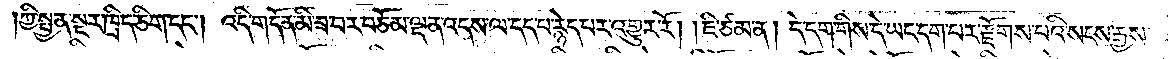ཀྱི་སྤྱན་སྔར་ཁྲིད་ཅིག་དང༌། འདི་གདོན་མི་ཟ་བར་བཅོམ་ལྡན་འདས་ལ་དད་པ་རྙེད་པར་འགྱུར་རོ། །ཇི་ཙམ་ན། དེ་དག་གིས་དེ་ཡང་དག་པར་རྫོགས་པའི་སངས་རྒྱས་
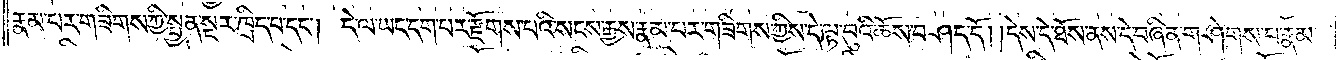རྣམ་པར་གཟིགས་ཀྱི་སྤྱན་སྔར་ཁྲིད་པ་དང༌། དེ་ལ་ཡང་དག་པར་རྫོགས་པའི་སངས་རྒྱས་རྣམ་པར་གཟིགས་ཀྱིས་དེ་ལྟ་བུའི་ཆོས་བཤད་དོ། །དེས་དེ་ཐོས་ནས་དེ་བཞིན་གཤེགས་པ་རྣམ་
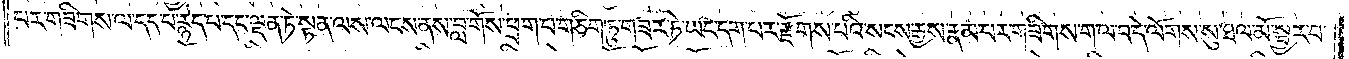པར་གཟིགས་ལ་དད་པ་རྙེད་པ་དང་ལྡན་ཏེ་སྟན་ལས་ལངས་ནས་བླ་གོས་ཕྲག་པ་གཅིག་ཏུ་གཟར་ཏེ་ཡང་དག་པར་རྫོགས་པའི་སངས་རྒྱས་རྣམ་པར་གཟིགས་ག་ལ་བ་དེ་ལོགས་སུ་ཐལ་མོ་སྦྱར་བ་
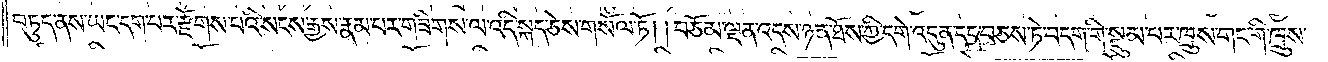བཏུད་ནས་ཡང་དག་པར་རྫོགས་པའི་སངས་རྒྱས་རྣམ་པར་གཟིགས་ལ་འདི་སྐད་ཅེས་གསོལ་ཏོ། །བཅོམ་ལྡན་འདས་ཉན་ཐོས་ཀྱི་དགེ་འདུན་དང་བཅས་ཏེ་བདག་གི་སྡུམ་པར་ཁྲུས་གང་གི་ཁྲུས་
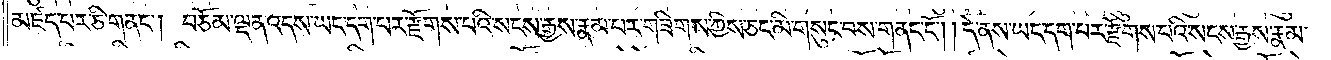མཛད་པར་ཅི་གནང༌། བཅོམ་ལྡན་འདས་ཡང་དག་པར་རྫོགས་པའི་སངས་རྒྱས་རྣམ་པར་གཟིགས་ཀྱིས་ཅང་མི་གསུང་བས་གནང་ངོ༌། །དེ་ནས་ཡང་དག་པར་རྫོགས་པའི་སངས་རྒྱས་རྣམ་
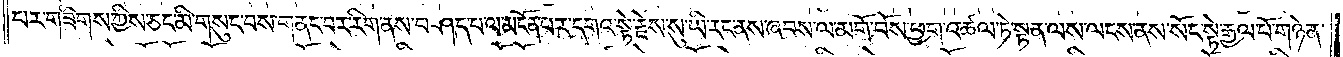པར་གཟིགས་ཀྱི་ཅང་མི་གསུང་བས་གནང་བར་རིག་ནས་བཤད་པ་ལ་མངོན་པར་དགའ་སྟེ་རྗེས་སུ་ཡི་རང་ནས་ཞབས་ལ་མགོ་བོས་ཕྱག་འཚལ་ཏེ་སྟན་ལས་ལངས་ནས་སོང་སྟེ་རྒྱལ་པོ་གཉེན་
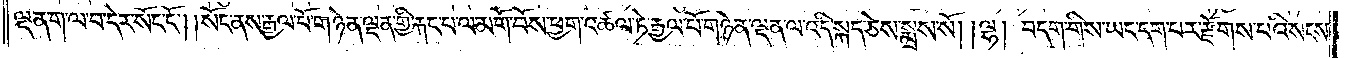ལྡན་ག་ལ་བ་དེར་སོང་ངོ༌། །སེང་ནས་རྒྱལ་པོ་གཉེན་ལྡན་གྱི་རྐང་པ་ལ་མགོ་བོས་ཕྱག་འཚལ་ཏེ་རྒྱལ་པོ་གཉེན་ལྡན་ལ་འདི་སྐད་ཅེས་སྨྲས་སོ། །ལྷ། བདག་གིས་ཡང་དག་པར་རྫོགས་པའི་སངས་
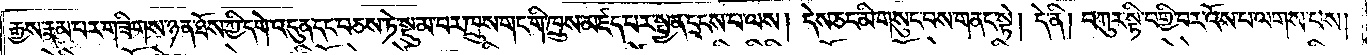རྒྱས་རྣམ་པར་གཟིགས་ཉན་ཐོས་ཀྱི་དགེ་འདུན་དང་བཅས་ཏེ་སྡུམ་པར་ཁྲུས་གང་གི་ཁྲུས་མཛད་པར་སྤྱན་དྲངས་པ་ལས། དེས་ཅང་མི་གསུང་བས་གནང་སྟེ། དེ་ནི། བཀུར་སྟི་བགྱི་བར་འོས་པ་ལགས་པས།
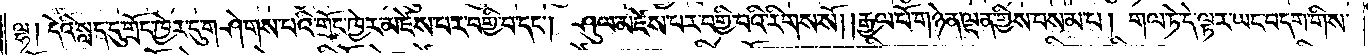ལྷ། དེའི་སླད་དུ་གྲོང་ཁྱེར་དུ་གཤེགས་པའི་གྲོང་ཁྱེར་མཛེས་པར་བགྱི་བ་དང༌། ཤུལ་མཛེས་པར་བགྱི་བའི་རིགས་སོ། །རྒྱལ་པོ་གཉེན་ལྡན་གྱིས་བསམ་པ། གལ་ཏེ་དེ་ལྟར་ཡང་བདག་གིས་
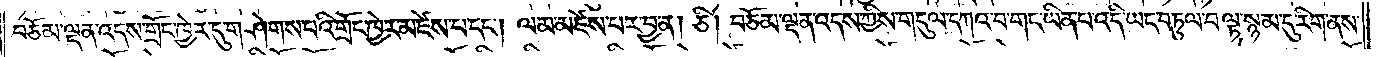བཅོམ་ལྡན་འདས་གྲོང་ཁྱེར་དུ་གཤེགས་པའི་གྲོང་ཁྱེར་མཛེས་པ་དང༌། ལམ་མཛེས་པར་བྱ་ན། ཅི། བཅོམ་ལྡན་འདས་ཀྱིས་གདུལ་དཀའ་བ་གང་ཡིན་པ་འདི་ཡང་བཏུལ་བལྟ་སྙམ་དུ་རིག་ནས་
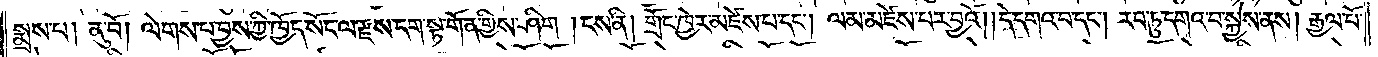སྨྲས་པ། ནུ་བོ། ལེགས་པ་བྱས་ཀྱི་ཁྱོད་སོང་ལ་རྫས་དག་སྟ་གོན་གྱིས་ཤིག །ངས་ནི། གྲོང་ཁྱེར་མཛེས་པ་དང༌། ལམ་མཛེས་པར་བྱའོ། །དེ་དགའ་བ་དང༌། རབ་ཏུ་དགའ་བ་སྐྱེས་ནས། རྒྱལ་པོ་
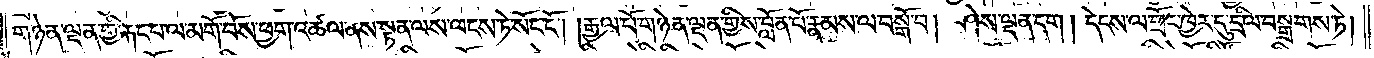གཉེན་ལྡན་གྱི་རྐང་པ་ལ་མགོ་བོས་ཕྱག་འཚལ་ནས་སྟན་ལས་ལངས་ཏེ་སོང་ངོ༌། །རྒྱལ་པོ་གཉེན་ལྡན་གྱིས་བློན་པོ་རྣམས་ལ་བསྒོ་བ། ཤེས་ལྡན་དག །དེངས་ལ་གྲོང་ཁྱེར་དུ་དྲིལ་བསྒྲགས་ཏེ།
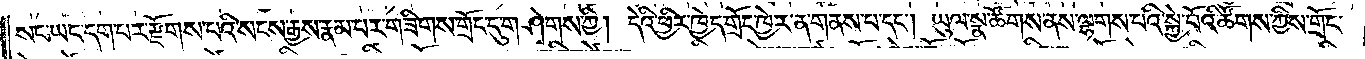སང་ཡང་དག་པར་རྫོགས་པའི་སངས་རྒྱས་རྣམ་པར་གཟིགས་གྲོང་དུ་གཤེགས་ཀྱི། དེའི་ཕྱིར་ཁྱེད་གྲོང་ཁྱེར་ན་གནས་པ་དང༌། ཡུལ་སྣ་ཚོགས་ནས་ལྷགས་པའི་སྐྱེ་བོའི་ཚོགས་ཀྱིས་གྲོང་
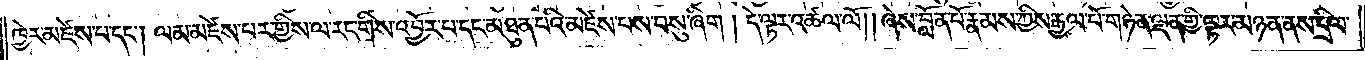ཁྱེར་མཛེས་པ་དང༌། ལམ་མཛེས་པར་གྱིས་ལ་རང་གིས་འབྱོར་པ་དང་མཐུན་པའི་མཛེས་པས་བསུ་ཞིག །དེ་ལྟར་འཚལ་ལོ། །ཞེས་བློན་པོ་རྣམས་ཀྱིས་རྒྱལ་པོ་གཉེན་ལྡན་གྱི་ལྟར་མཉན་ནས་དྲིལ་
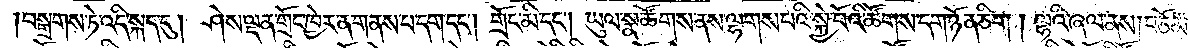བསྒྲགས་ཏེ་འདི་སྐད་དུ། ཤེས་ལྡན་གྲོང་ཁྱེར་ན་གནས་པ་དག་དང༌། གྲོང་མི་དང༌། ཡུལ་སྣ་ཚོགས་ནས་ལྷགས་པའི་སྐྱེ་བོའི་ཚོགས་དག་ཉོན་ཅིག །ལྷའི་ཞལ་ནས། བཅོམ་
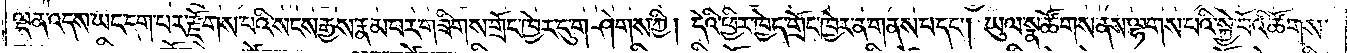ལྡན་འདས་ཡང་དག་པར་རྫོགས་པའི་སངས་རྒྱས་རྣམ་པར་གཟིགས་གྲོང་ཁྱེར་དུ་གཤེགས་ཀྱི། དེའི་ཕྱིར་ཁྱེད་གྲོང་ཁྱེར་ན་གནས་པ་དང༌། ཡུལ་སྣ་ཚོགས་ནས་ལྷགས་པའི་སྐྱེ་བོའི་ཚོགས་
